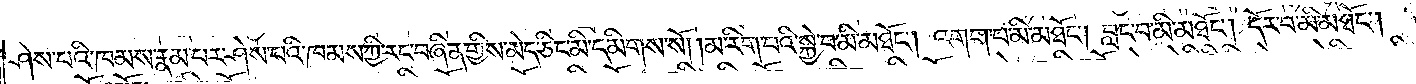ཤེས་པའི་ཁམས་རྣམ་པར་ཤེས་པའི་ཁམས་ཀྱི་རང་བཞིན་གྱིས་མེད་ཅིང་མི་དམིགས་སོ། །མ་རིག་པའི་སྐྱེ་བ་མི་མཐོང༌། འགག་པ་མི་མཐོང༌། བླང་བ་མི་མཐོང༌། དོར་བ་མི་མཐོང༌།
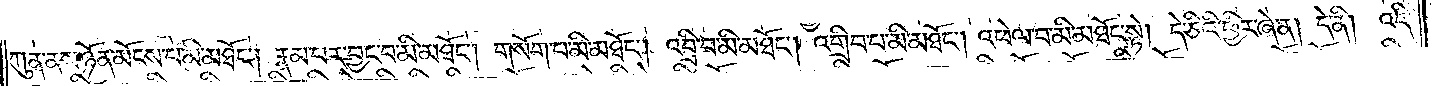ཀུན་ནས་ཉོན་མོངས་པ་མི་མཐོང༌། རྣམ་པར་བྱང་བ་མི་མཐོང༌། གསོག་པ་མི་མཐོང༌། འབྲི་བ་མི་མཐོང༌། འགྲིབ་པ་མི་མཐོང༌། འཕེལ་བ་མི་མཐོང་སྟེ། དེ་ཅིའི་ཕྱིར་ཞེ་ན། །དེ་ནི། འདི་
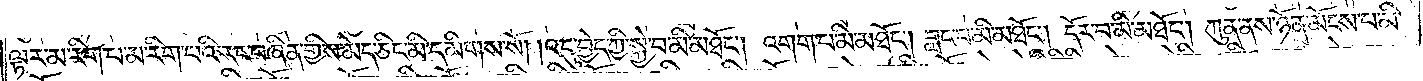ལྟར་མ་རིག་པ་མ་རིག་པའི་རང་བཞིན་གྱིས་མེད་ཅིང་མི་དམིགས་སོ། །འདུ་བྱེད་ཀྱི་སྐྱེ་བ་མི་མཐོང༌། འགག་པ་མི་མཐོང༌། བླང་བ་མི་མཐོང༌། དོར་བ་མི་མཐོང༌། ཀུན་ནས་ཉོན་མོངས་པ་མི་
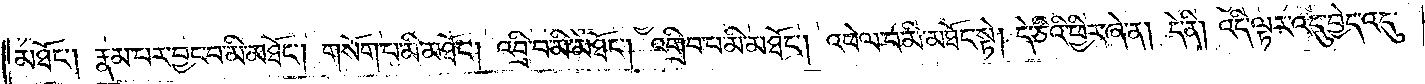མཐོང༌། རྣམ་པར་བྱང་བ་མི་མཐོང༌། གསོག་པ་མི་མཐོང༌། འབྲི་བ་མི་མཐོང༌། འགྲིབ་པ་མི་མཐོང༌། འཕེལ་བ་མི་མཐོང་སྟེ། དེ་ཅིའི་ཕྱིར་ཞེ་ན། དེ་ནི། འདི་ལྟར་འདུ་བྱེད་འདུ་
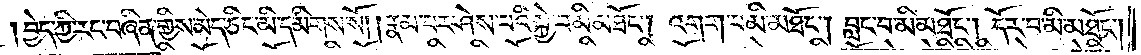བྱེད་ཀྱི་རང་བཞིན་གྱིས་མེད་ཅིང་མི་དམིགས་སོ། །རྣམ་པར་ཤེས་པའི་སྐྱེ་བ་མི་མཐོང༌། འགག་པ་མི་མཐོང༌། བླང་བ་མི་མཐོང༌། དོར་བ་མི་མཐོང༌།
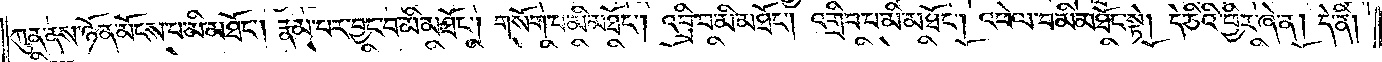ཀུན་ནས་ཉོན་མོངས་པ་མི་མཐོང༌། རྣམ་པར་བྱང་བ་མི་མཐོང༌། གསོག་པ་མི་མཐོང༌། འབྲི་བ་མི་མཐོང༌། འགྲིབ་པ་མི་མཐོང༌། འཕེལ་བ་མི་མཐོང་སྟེ། དེ་ཅིའི་ཕྱིར་ཞེ་ན། དེ་ནི།
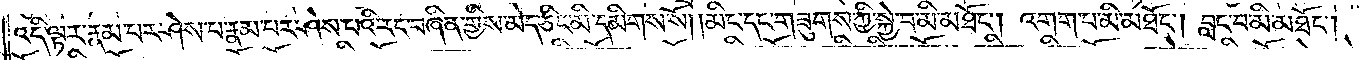འདི་ལྟར་རྣམ་པར་ཤེས་པ་རྣམ་པར་ཤེས་པའི་རང་བཞིན་གྱིས་མེད་ཅིང་མི་དམིགས་སོ། །མིང་དང་གཟུགས་ཀྱི་སྐྱེ་བ་མི་མཐོང༌། འགག་པ་མི་མཐོང༌། བླང་བ་མི་མཐོང༌།
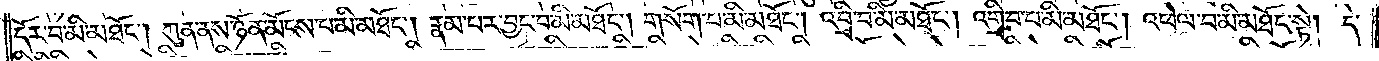དོར་བ་མི་མཐོང༌། ཀུན་ནས་ཉོན་མོངས་པ་མི་མཐོང༌། རྣམ་པར་བྱང་བ་མི་མཐོང༌། གསོག་པ་མི་མཐོང༌། འབྲི་བ་མི་མཐོང༌། འགྲིབ་པ་མི་མཐོང༌། འཕེལ་བ་མི་མཐོང་སྟེ། དེ་
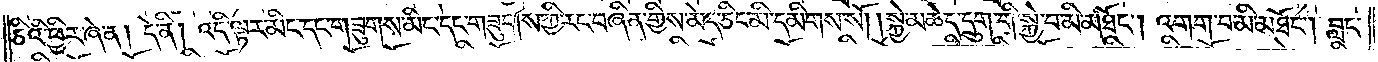ཅིའི་ཕྱིར་ཞེ་ན། དེ་ནི། འདི་ལྟར་མིང་དང་གཟུགས་མིང་དང་གཟུགས་ཀྱི་རང་བཞིན་གྱིས་མེད་ཅིང་མི་དམིགས་སོ། །སྐྱེ་མཆེད་དྲུག་གི་སྐྱེ་བ་མི་མཐོང༌། འགག་པ་མི་མཐོང༌། བླང་
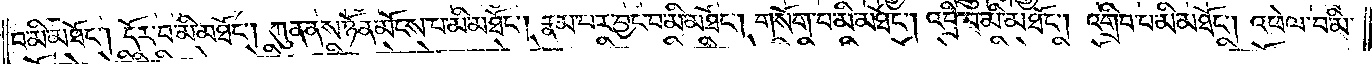བ་མི་མཐོང༌། དོར་བ་མི་མཐོང༌། ཀུན་ནས་ཉོན་མོངས་པ་མི་མཐོང༌། རྣམ་པར་བྱང་བ་མི་མཐོང༌། གསོག་པ་མི་མཐོང༌། འབྲི་བ་མི་མཐོང༌། འགྲིབ་པ་མི་མཐོང༌། འཕེལ་བ་མི་
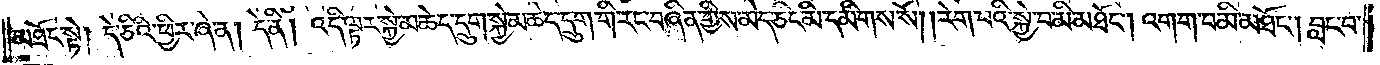མཐོང་སྟེ། དེ་ཅིའི་ཕྱིར་ཞེ་ན། དེ་ནི། འདི་ལྟར་སྐྱེ་མཆེད་དྲུག་སྐྱེ་མཆེད་དྲུག་གི་རང་བཞིན་གྱིས་མེད་ཅིང་མི་དམིགས་སོ། །རེག་པའི་སྐྱེ་བ་མི་མཐོང༌། འགག་པ་མི་མཐོང༌། བླང་བ་
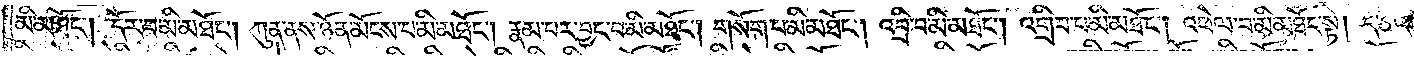མི་མཐོང༌། དོར་བ་མི་མཐོང༌། ཀུན་ནས་ཉོན་མོངས་པ་མི་མཐོང༌། རྣམ་པར་བྱང་བ་མི་མཐོང༌། གསོག་པ་མི་མཐོང༌། འབྲི་བ་མི་མཐོང༌། འགྲིབ་པ་མི་མཐོང༌། འཕེལ་བ་མི་མཐོང་སྟེ། དེ་ཅིའི་
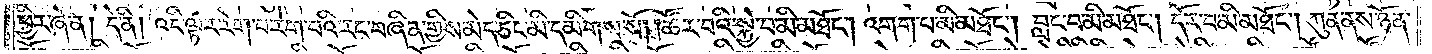ཕྱིར་ཞེ་ན། དེ་ནི། འདི་ལྟར་རེག་པ་རེག་པའི་རང་བཞིན་གྱིས་མེད་ཅིང་མི་དམིགས་སོ། །ཚོར་བའི་སྐྱེ་བ་མི་མཐོང༌། འགག་པ་མི་མཐོང༌། བླང་བ་མི་མཐོང༌། དོར་བ་མི་མཐོང༌། ཀུན་ནས་ཉོན་
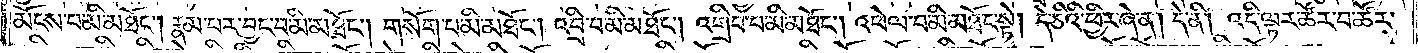མོངས་པ་མི་མཐོང༌། རྣམ་པར་བྱང་བ་མི་མཐོང༌། གསོག་པ་མི་མཐོང༌། འབྲི་བ་མི་མཐོང༌། འགྲིབ་པ་མི་མཐོང༌། འཕེལ་བ་མི་མཐོང་སྟེ། དེ་ཅིའི་ཕྱིར་ཞེ་ན། དེ་ནི། འདི་ལྟར་ཚོར་བ་ཚོར་
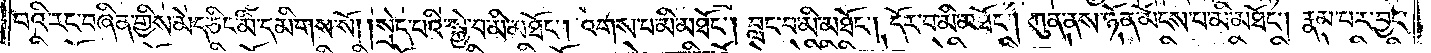བའི་རང་བཞིན་གྱིས་མེད་ཅིང་མི་དམིགས་སོ། །སྲེད་པའི་སྐྱེ་བ་མི་མཐོང༌། འགས་པ་མི་མཐོང༌། བླང་བ་མི་མཐོང༌། དོར་བ་མི་མཐོང༌། ཀུན་ནས་ཉོན་མོངས་པ་མི་མཐོང༌། རྣམ་པར་བྱང་
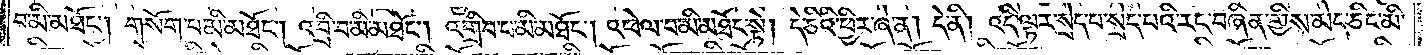བ་མི་མཐོང༌། གསོག་པ་མི་མཐོང༌། འབྲི་བ་མི་མཐོང༌། འགྲིབ་པ་མི་མཐོང༌། འཕེལ་བ་མི་མཐོང་སྟེ། དེ་ཅིའི་ཕྱིར་ཞེ་ན། དེ་ནི། འདི་ལྟར་སྲེད་པ་སྲེད་པའི་རང་བཞིན་གྱིས་མེད་ཅིང་མི་
